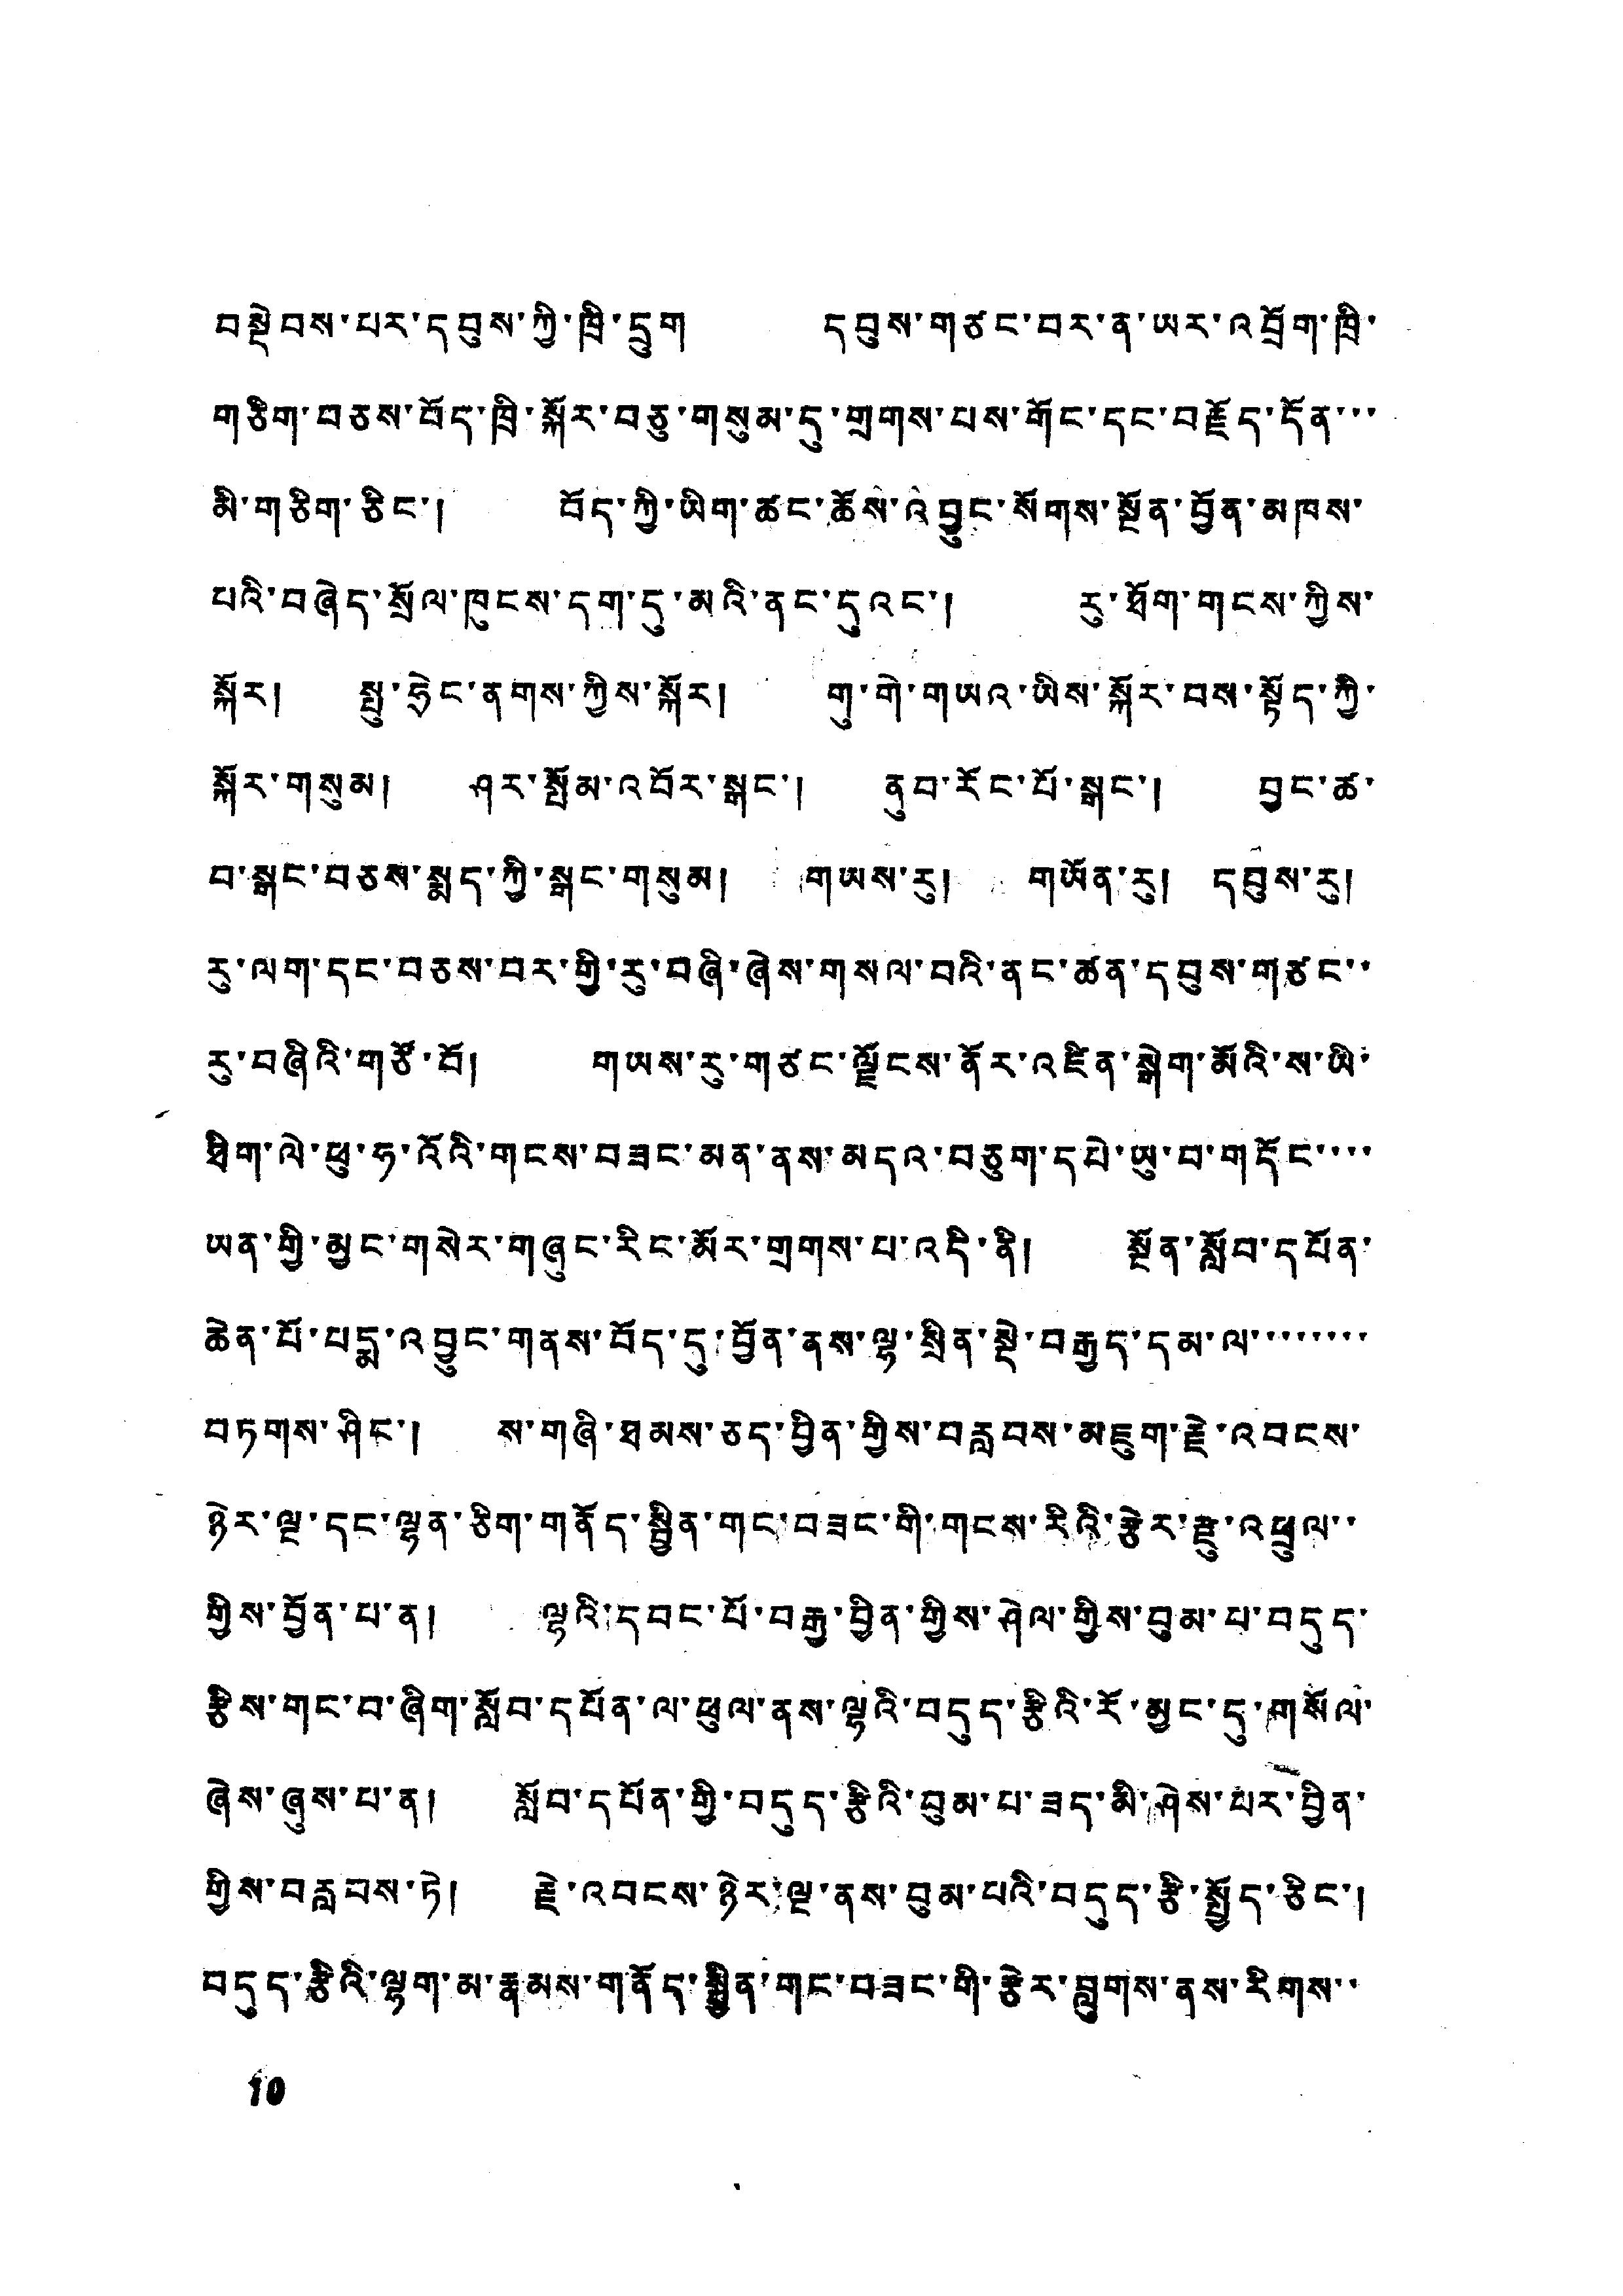བསྡེབས་པར་དབུས་ཀྱི་ཁྲི་དྲུག དབུས་གཙང་བར་ན་ཡར་འབྲོག་ཁྲི་
གཅིག་བཅས་བོད་ཁྲི་སྐོར་བཅུ་གསུམ་དུ་གྲགས་པས་གོང་དང་བརྗོད་དོན་་་
མི་གཅིག་ཅིང་། བོད་ཀྱི་ཡིག་ཚང་ཆོས་འབྱུང་སོགས་སྔོན་བྱོན་མཁས་
པའི་བཞེད་སྲོལ་ཁུངས་དག་དུ་མའི་ནང་དུའང་། རུ་ཐོག་གངས་ཀྱིས་
སྐོར། སྤུ་ཧྲེང་ནགས་ཀྱིས་སྐོར། གུ་གེ་གཡའ་ཡིས་སྐོར་བས་སྟོད་ཀྱི་
སྐོར་གསུམ། ཤར་སྤོམ་འབོར་སྒང་། ནུབ་རོང་པོ་སྒང་། བྱང་ཚ་
བ་སྒང་བཅས་སྨད་ཀྱི་སྒང་གསུམ། གཡས་རུ། གཡོན་རུ། དབུས་རུ།
རུ་ལག་དང་བཅས་བར་གྱི་རུ་བཞི་ཞེས་གསལ་བའི་ནང་ཚན་དབུས་གཙང་
རུ་བཞིའི་གཙོ་བོ། གཡས་རུ་གཙང་ལྗོངས་ནོར་འཛིན་སྒེག་མོའི་ས་ཡི་
ཐིག་ལེ་ཕུ་ཧ་འོའི་གངས་བཟང་མན་ནས་མདའ་བཅུག་དཔེ་ཡུ་བ་གདོང་་་་
ཡན་གྱི་མྱང་གསེར་གཞུང་རིང་མོར་གྲགས་པ་འདི་ནི། སྔོན་སློབ་དཔོན་
ཆེན་པོ་པདམ་འབྱུང་གནས་བོད་དུ་བྱོན་ནས་ལྷ་སྲིན་སྡེ་བརྒྱད་དམ་ལ་་་་་་་་
བཏགས་ཤིང་། ས་གཞི་ཐམས་ཅད་བྱིན་གྱིས་བརླབས་མཇུག་རྗེ་འབངས་
ཉེར་ལྔ་དང་ལྷན་ཅིག་གནོད་སྦྱིན་གང་བཟང་གི་གངས་རིའི་རྩེར་རྫུ་འཕྲུལ་་
གྱིས་བྱོན་པ་ན། ལྷའི་དབང་པོ་བརྒྱ་བྱིན་གྱིས་ཤེལ་གྱིས་བུམ་པ་བདུད་
རྩིས་གང་བ་ཞིག་སློབ་དཔོན་ལ་ཕུལ་ནས་ལྷའི་བདུད་རྩིའི་རོ་མྱང་དུ་གསོལ་
ཞེས་ཞུས་པ་ན། སློབ་དཔོན་གྱི་བདུད་རྩིའི་བུམ་པ་ཟད་མི་ཤེས་པར་བྱིན་
གྱིས་བརླབས་ཏེ། རྗེ་འབངས་ཉེར་ལྔ་ནས་བུམ་པའི་བདུད་རྩི་སྤྱོད་ཅིང་།
བདུད་རྩིའི་ལྷག་མ་རྣམས་གནོད་སྦྱིན་གང་བཟང་གི་རྩེར་བླུགས་ནས་རིགས་་
10
